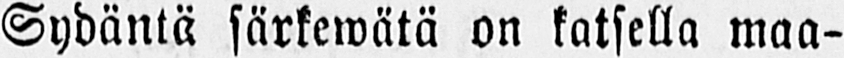Sydäntä särkewätä on katsella maa-
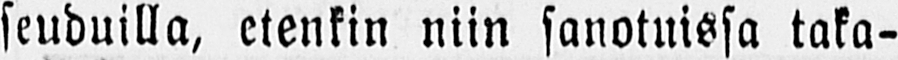seuduilla, etenkin niin sanotuissa taka-
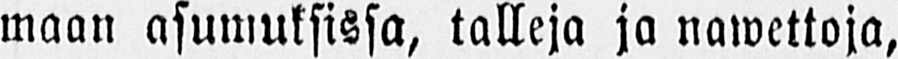maan asumuksissa, talleja ja nawettoja,
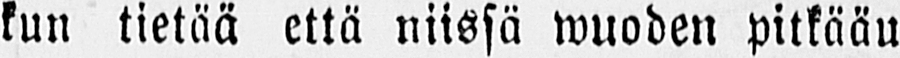kun tietää että niissä wuoden pitkääu
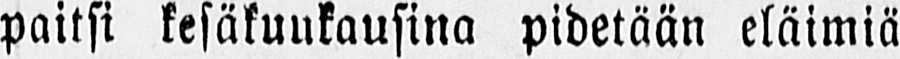paitsi kesäkuukausina pidetään eläimiä
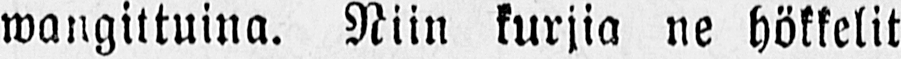wangittuina. Niin kurjia ne hökkelit
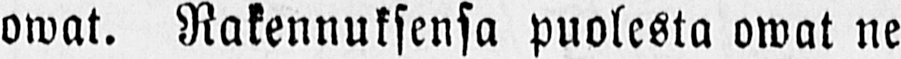owat. Rakennuksensa puolesta owat ne
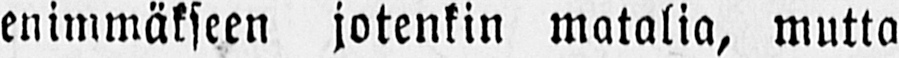enimmäkseen jotenkin matalia, mutta
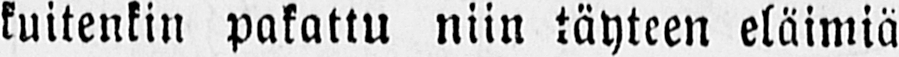kuitenkin pakattu niin täyteen eläimiä
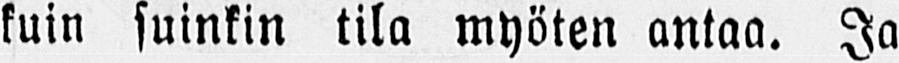kuin suinkin tila myöten antaa. Ja
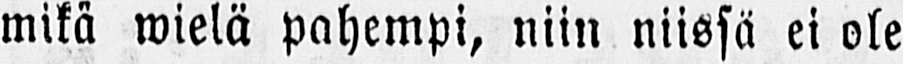mikä wielä pahempi, niin niissä ei ole
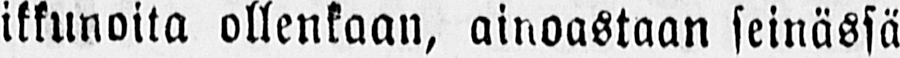ikkunoita ollenkaan, ainoastaan seinässä
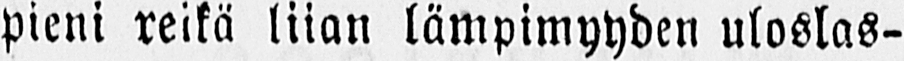pieni reikä liian lämpimyyden uloslas-
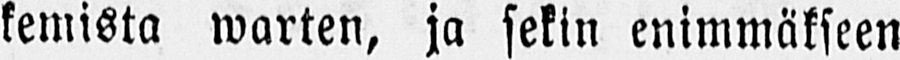kemista warten, ja sekin enimmäkseen
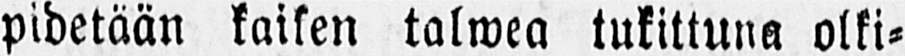pidetään kaiken talwea tukittuna olki-
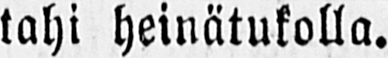tahi heinätukolla.
